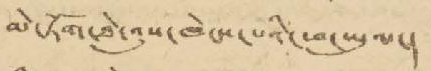མེ་ཏོག་ཐེ་འུས་ཁེངས་པའི་ཕ་ཡུལ་།
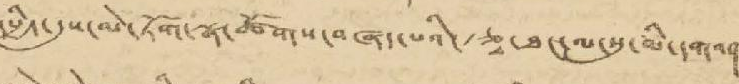དཔྱིད་དུས་མེ་ཏོག་སྣ་ཚོགས་བཞད་པའི་རྩྭ་ཐང་ལ་སུ་མི་དགའ་།
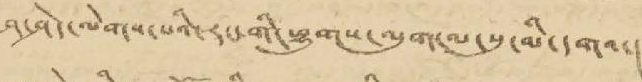ཤ་ཤེད་ལེགས་པའི་རང་གི་ཕྱུགས་ལུག་ལ་སུ་མི་དགའ་།
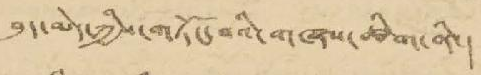བུད་མེད་ཀྱིས་གཏོང་བའི་གཞས་ཚིག་ནི་།
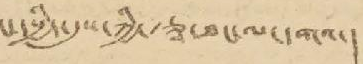ང་དཔྱིད་དུས་ཀྱི་རྩྭ་ཐང་ལ་དགའ་།
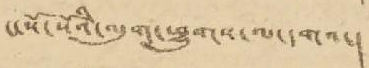ང་སོ་སོའི་ལུག་ཕྱུགས་ལ་དགའ་།
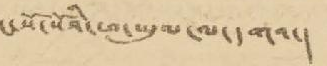ང་སོ་སོའི་ཕ་ཡུལ་ལ་དགའ་།
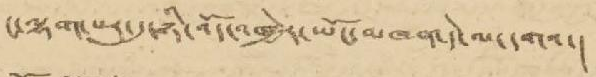ང་ལྷག་པར་དུ་ཉི་འོད་འཁྱེར་ཡོང་མཁན་དེ་ལ་དགའ་།
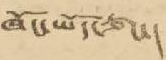ཁོང་ཡོད་ཙང་།
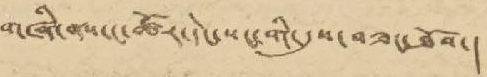གཞི་ནས་ང་ཚོར་དེང་སང་གི་དུས་བཟང་ཐོབ་།
